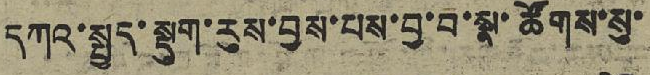དཀའ་སྤྱད་སྡུག་རུས་བྱས་པས་བྱ་བ་སྣ་ཚོགས་སུ་
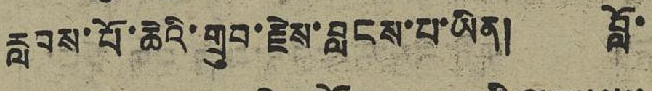རླབས་པོ་ཆེའི་གྲུབ་རྗེས་བླངས་པ་ཡིན། བློ་
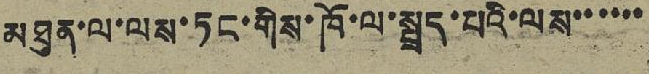མཐུན་ལ་ལས་ཏང་གིས་ཁོ་ལ་སྤྲད་པའི་ལས་་་་་་
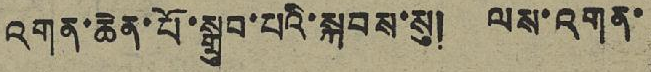འགན་ཆེན་པོ་སྒྲུབ་པའི་སྐབས་སུ། ལས་འགན་
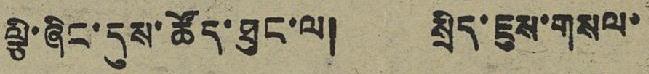ལྕི་ཞིང་དུས་ཚོད་ཐུང་ལ། སྲིད་ཇུས་གསལ་
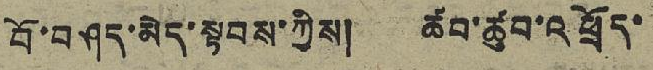བོ་བཤད་མེད་སྟབས་ཀྱིས། ཚབ་ཚུབ་འཕྲོད་
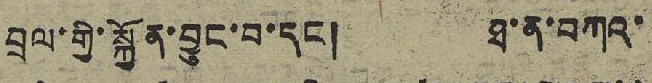བྲལ་གྱི་སྐྱོན་བྱུང་བ་དང་། ཐ་ན་བཀའ་
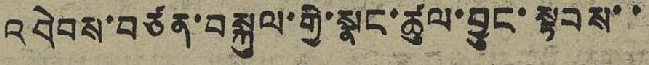འབེབས་བཙན་བསྐྱལ་གྱི་སྣང་ཚུལ་བྱུང་སྟབས་་
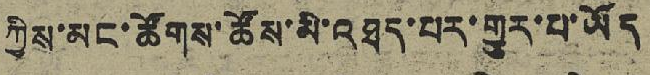ཀྱིས་མང་ཚོགས་ཚོས་མི་འཐད་པར་གྱུར་པ་ཡོད
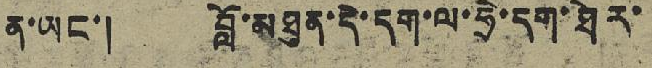ན་ཡང་། བློ་མཐུན་དེ་དག་ལ་ཧྲེ་དག་ཐེར་
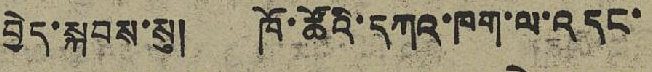བྱེད་སྐབས་སུ། ཁོ་ཚོའི་དཀའ་ཁག་ལ་འདང་
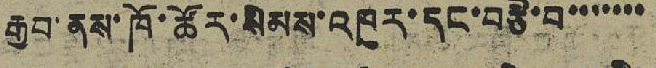རྒྱུབ་ནས་ཁོ་ཚོར་སེམས་འཁུར་དང་བརྩེ་བ་་་་་་་
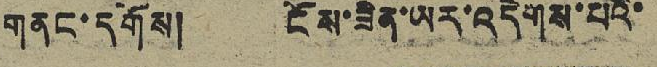གནང་དགོས། ངོས་ཟིན་ཡར་འདེགས་པའི་
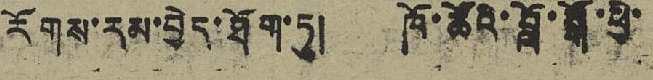རོགས་རམ་བྱེད་ཐོག་ཏུ། ཁོ་ཚོའི་བློ་སྒོ་ཕྱི་
